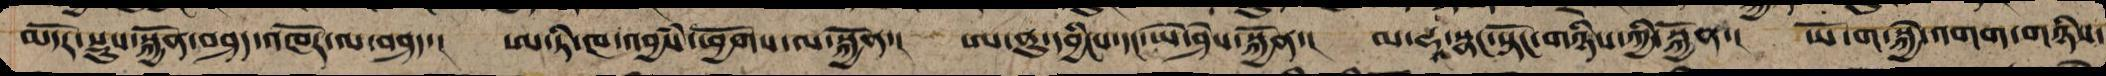མདོར་སྡུས་སྐྱོན་བཤད་འཁོར་ལ་བཤ་ད། ཨ་ཏི་ཁ་འབྱཾས་ཕྱོགས་ལྷུང་སྐྱོན་། ཨ་ནུ་དབྱིངས་དང་ཡེ་ཤེས་སྐྱོན་། མ་ཧཱ་སྣང་སྟོང་གཉིས་ཀྱི་སྐྱོན་། ཡོ་ག་སྐྱེ་འགག་གཉིས་
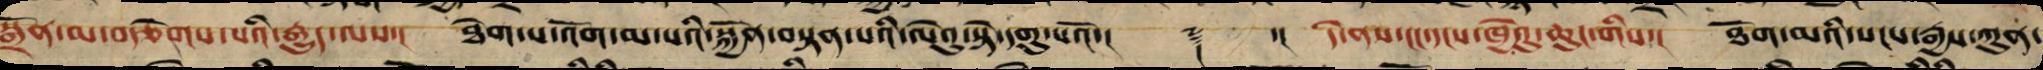སྒྲོན་མ་བརྩེགས་པའི་རྒྱུད་ལས་། ཐེག་པ་འོག་མ་པའི་སྐྱོན་བསྟན་པའི་ལེའུ་སྟེ་དགུ་པའོ་།། ༈ ་།། དེ་ནས་ངང་དངས་ཁྱེའུ་ཆུང་གིས་། ཐོག་མའི་སངས་རྒྱས་ཀུན་
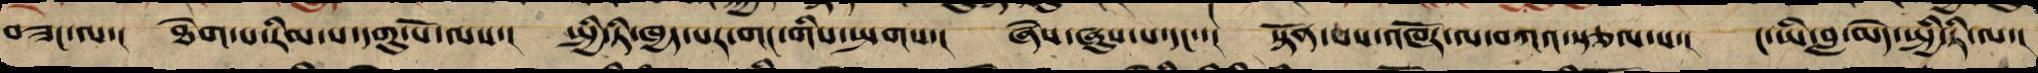བཟང་ལ་། ཐེག་པ་རིམ་པ་དགུ་པོ་ལས་། སྤྱི་ཏི་ཁྱད་པར་གང་གིས་སྤགས་། ཞེས་ཞུས་པ་དང་་། སྟོན་པས་འཁོར་ལ་བཀའ་སྩལ་པ་། ང་ཡི་བླ་མེད་སྤྱི་ཏི་ལ་།
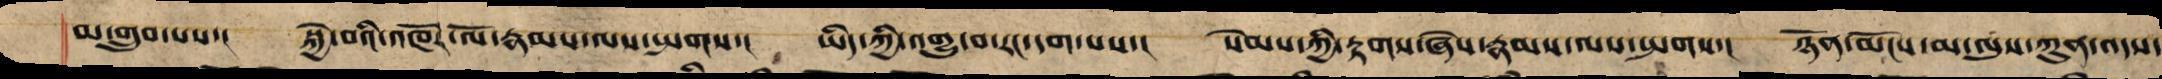མ་གྲུབ་པས་། སྐྱེ་བའི་འཁོར་ལོ་རྣམས་ལས་སྤགས་། ཡིད་ཀྱི་འགྱུ་བ་རང་དག་པས་། སེམས་ཀྱི་རྟགས་ཞེས་རྣམས་ལས་སྤགས་། ཉོན་མོངས་མ་ལུས་ཀུན་འདས་
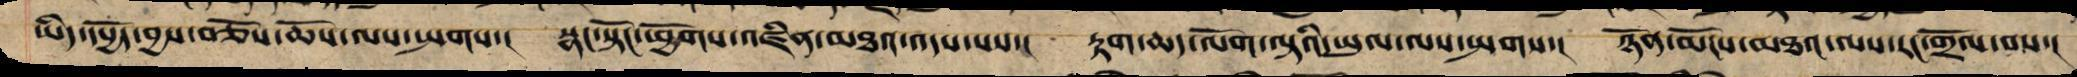ཡིད་དཔྱོད་བྱས་བཅོས་ཆོས་ལས་སྤགས་། སྣང་སྟོང་ཕྱོགས་འཛིན་མཐའ་འདས་པས་། རྟག་ཆད་ལོག་ལྟའི་ཡུལ་ལས་སྤགས་། ཉོན་མོངས་མཐའ་ལས་རང་གྲོལ་བས་།
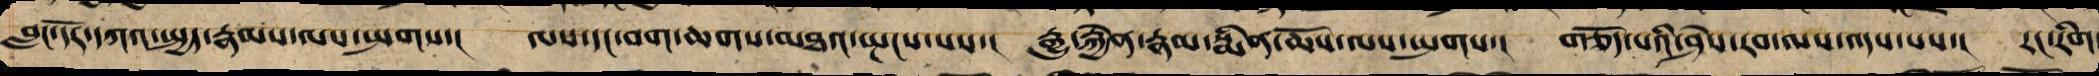བླང་དོར་དཀའ་སྤྱད་རྣམས་ལས་སྤགས་། ལས་དང་བག་ཆགས་མཐའ་སྤངས་པས་། རྒྱུ་རྐྱེན་རྣམ་སྨིན་ཆོས་ལས་སྤགས་། གཅོད་པའི་ཤེས་རབ་ལས་འདས་པས་། རང་རིག
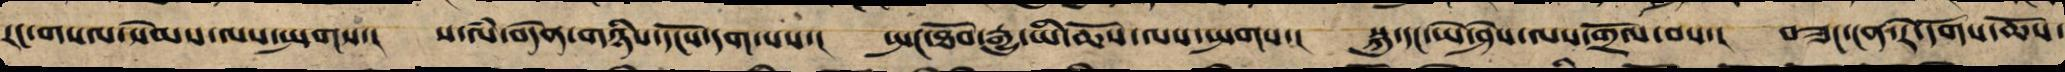རང་གསལ་སེམས་ལས་སྤགས་། ས་ལཾ་བདེན་གཉིས་དངོས་དག་པས་། སྤང་ཐོབ་རྒྱུ་ཡི་ཆོས་ལས་སྤགས་། སྐུ་དང་ཡེ་ཤེས་ལས་གྲོལ་བས་། བཟང་ངན་རེ་དོགས་ཆོས་
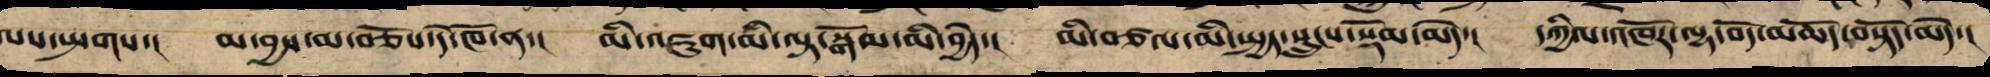ལས་སྤགས་། མ་བྱས་མ་བཅོས་དེ་ཁོ་ན་། མི་འཇུག་མི་ལྟ་སྒོམ་མི་བྱེད་། མི་བཙལ་མི་སྤྱད་སྲུངས་སྡོམ་མེད་། དཀྱིལ་འཁོར་ལྷ་བོད་མཆོད་བསྟོད་མེད་།
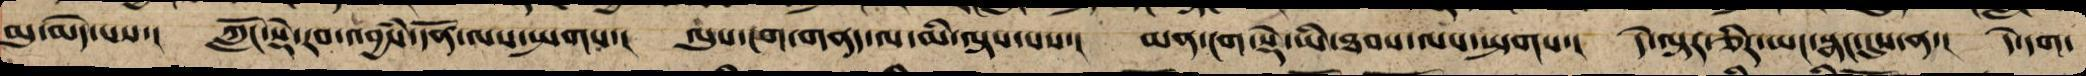མུ་མེད་པས་། ཀློང་སྡེ་རབ་འབྱཾས་དོན་ལས་སྤགས་། ལུས་ངག་གནད་ལ་མི་ལྟས་པས་། མན་ངག་སྡེ་ཡི་ཐབས་ལས་སྤགས་། དེ་ལྟར་ཅིར་ཡང་སྣང་དུས་ན་། དེ་དག་
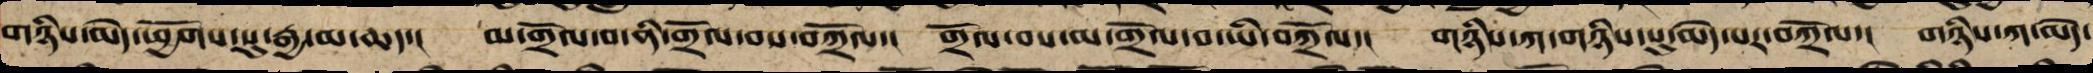གཉིས་མེད་ཕྱོགས་སུ་རྒྱ་མ་ཆད་། མ་གྲོལ་བ་ནི་གྲོལ་བས་བཀྲོལ་། གྲོལ་བ་མ་གྲོལ་བ་ཡིས་བཀྲོལ་། གཉིས་ཀ་གཉིས་སུ་མེད་པར་བཀྲོལ་། གཉིས་ཀ་མེད་
